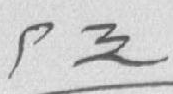༩༣
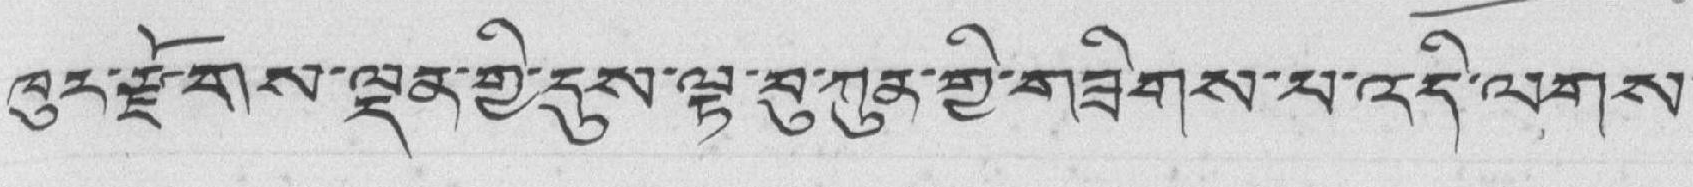ཁུར་རྫོགས་ལྡན་གྱི་དུས་ལྟ་བུ་ཀུན་གྱི་གཟིགས་པ་འདི་ལགས་
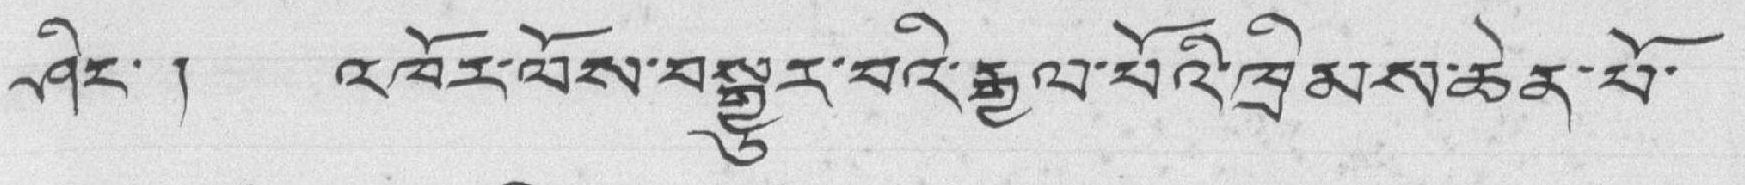ཤིང་ ། འཁོར་ལོས་བསྒྱུར་བའི་རྒྱལ་པོའི་ཁྲིམས་ཆེན་པོ་
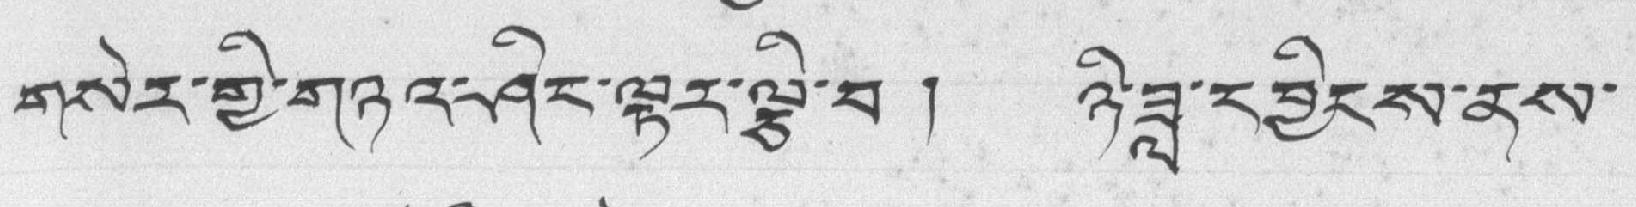གསེར་གྱི་གཉའ་ཤིང་ལྟར་ལྕི་བ ། ཉི་ཟླ་དབྱིངས་ནས་
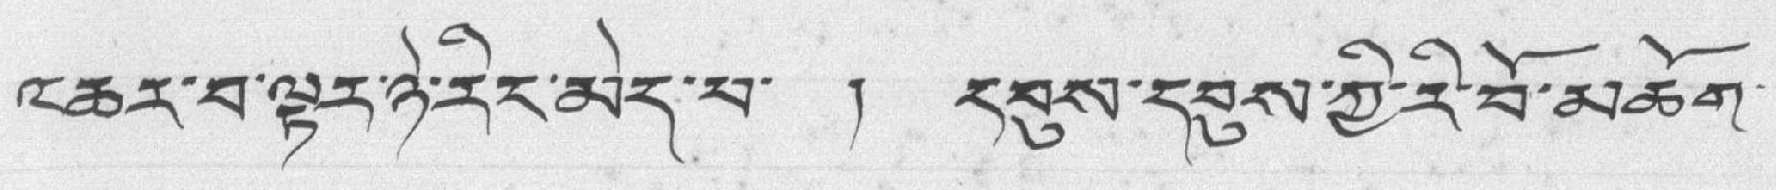འཆར་བ་ལྟར་ཉེ་རིང་མེད་པ་ ། དབུས་དབུས་ཀྱི་རི་བོ་མཆོག་
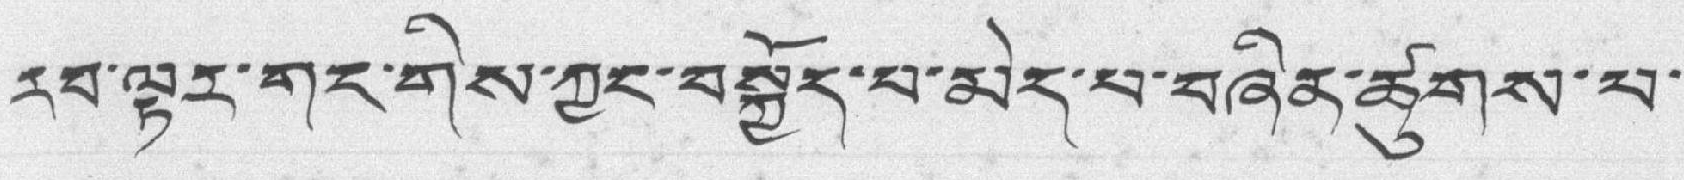རབ་ལྟར་གང་གིས་ཀྱང་བསྐྱོད་པ་མེད་པ་བཞིན་ཚུགས་པ་
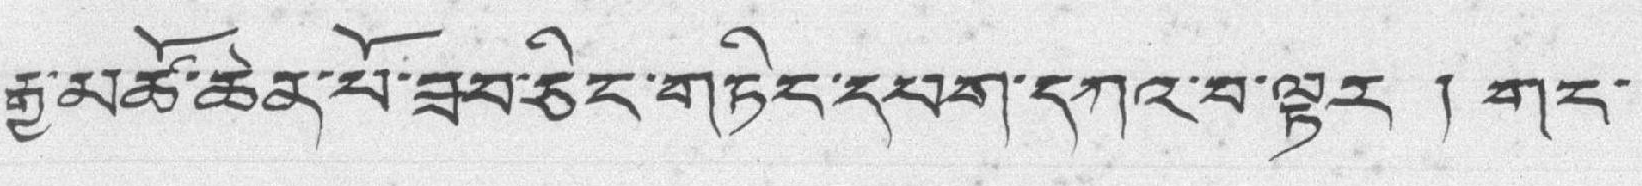རྒྱ་མཚོ་ཆེན་པོ་ཟབ་ཅིང་གཏིང་དཔག་དཀའ་བ་ལྟར་། གང་
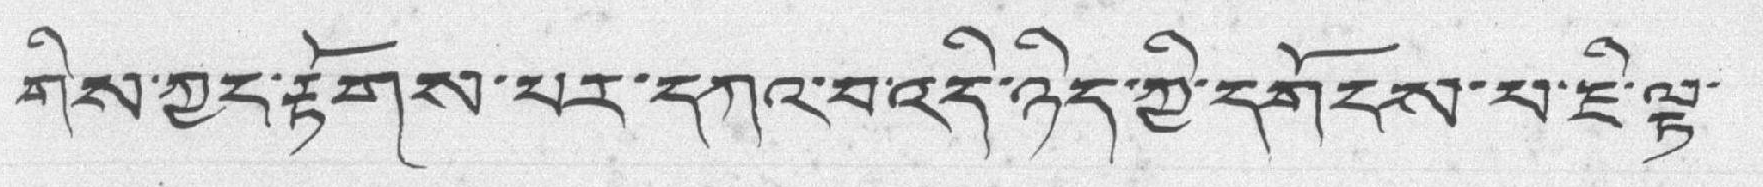གིས་ཀྱང་རྟོགས་པར་དཀའ་བ་འདི་ཉིད་ཀྱི་དགོངས་པ་ཇི་ལྟ་
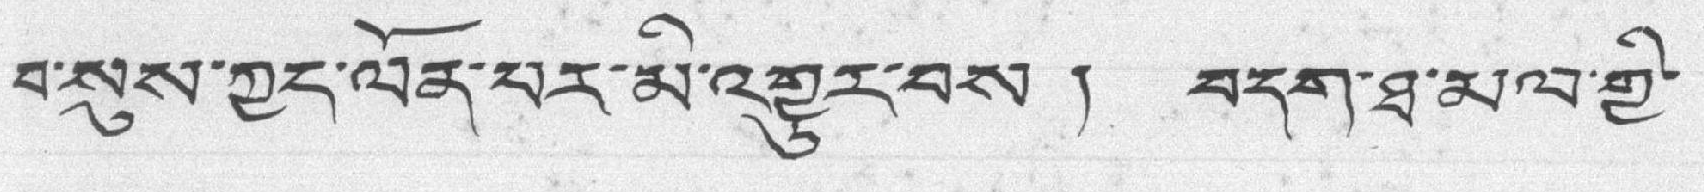བ་སུས་ཀྱང་ལོན་པར་མི་འགྱུར་བས ། བདག་ཐ་མལ་གྱི་
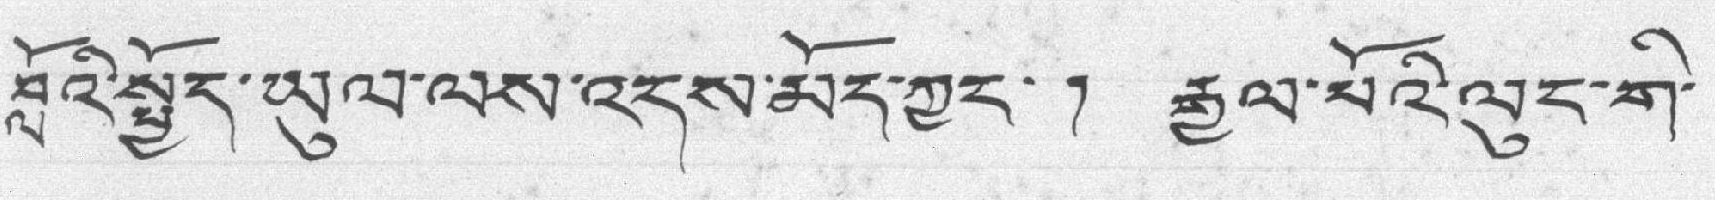བློའི་སྤྱོད་ཡུལ་ལས་འདས་མོད་ཀྱང་ ། རྒྱལ་པོའི་ལུང་ག་
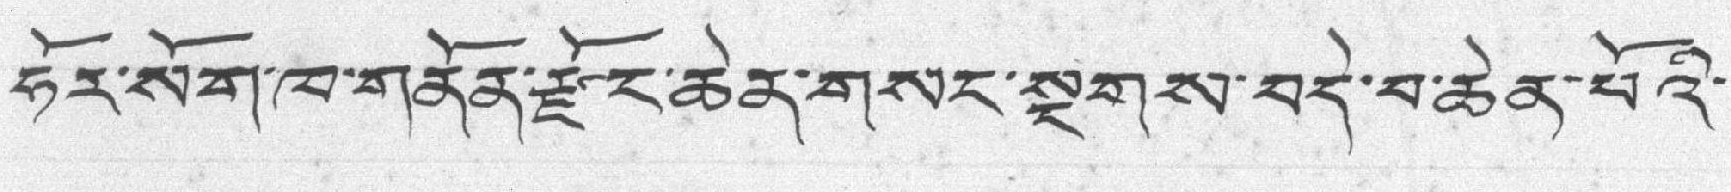ཧོར་སོག་ཁ་གནོན་རྫོང་ཆེན་གསར་སྔགས་བདེ་བ་ཆེན་པོའི་
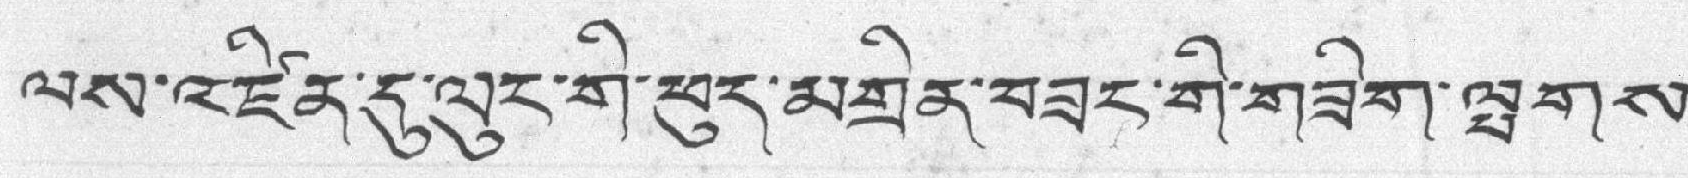ལས་འཛིན་དུ་ལུང་གི་ཕུད་མགྲིན་བཟང་གི་གཟིག་ལྤགས་
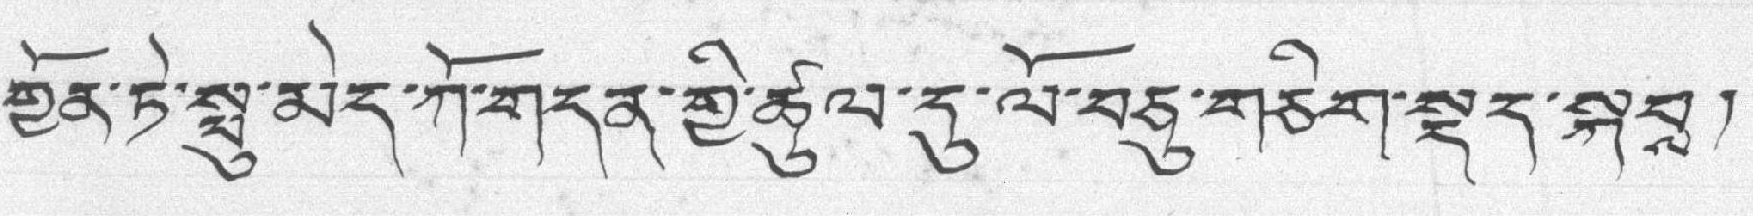གྱོན་ཏེ་སྤུ་མེད་ཀོ་གདན་གྱི་ཚུལ་དུ་ལོ་བཅུ་གཅིག་སྡད་སྐབས།
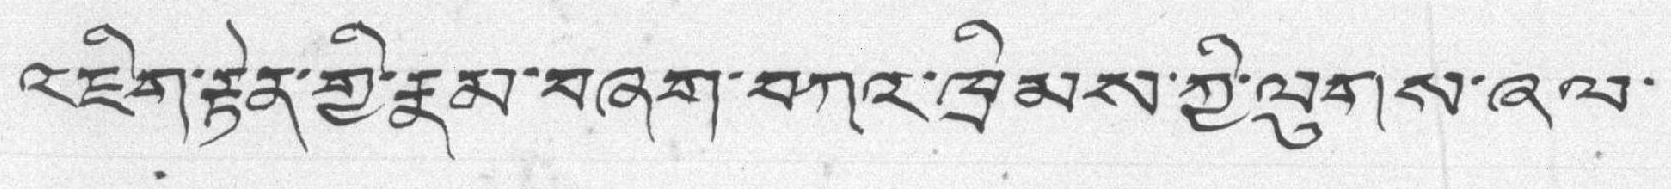འཇིག་རྟེན་གྱི་རྣམ་བཞག་བཀའ་ཁྲིམས་ཀྱི་འུགས་ཞལ་
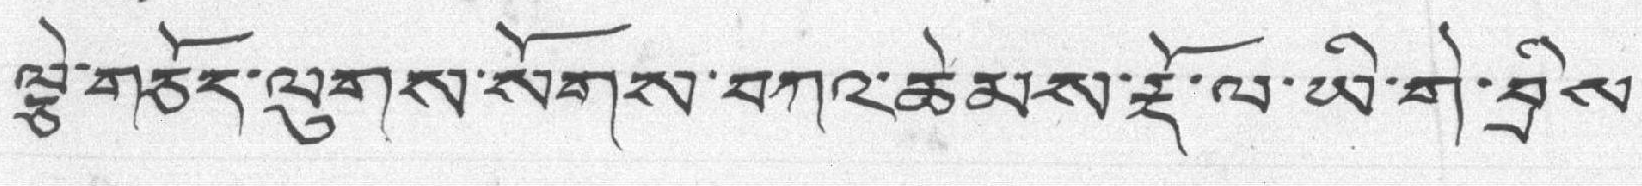ལྕེ་གཅོད་ལུགས་སོགས་བཀའ་ཆེམས་རྡོ་ལ་ཡི་གེ་བྲིས་
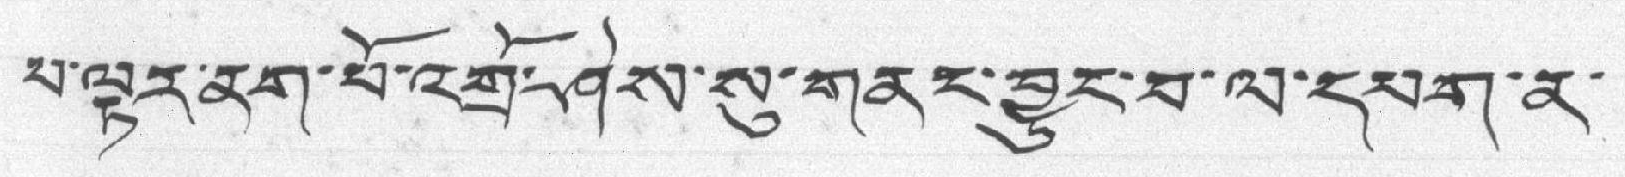པ་ལྟར་ནག་པོ་འགྲོ་ཤེས་སུ་གནང་བྱུང་བ་ལ་དམག་ན་
